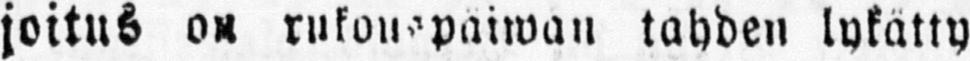joitus on rukouspäiwän tahden lykätty
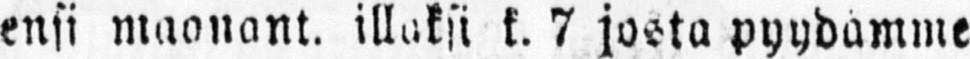ensi maanant. illaksi k. 7 josta pyydämme
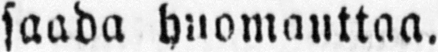saada huomauttaa.
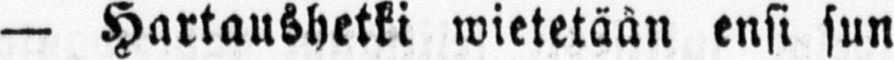— Hartaushetki wietetään ensi sun
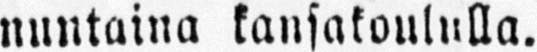nuntaina kansakoululla.
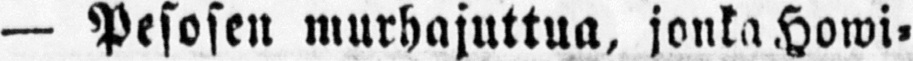— Pesosen murhajuttua, jonka Howi-
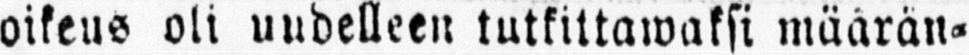oikeus oli uudelleen tutkittawaksi määrän-
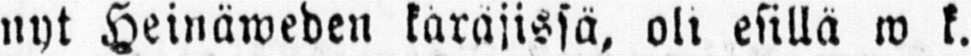nyt Heinäweden käräjissä, oli esillä w k.
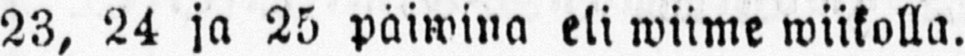23, 24 ja 25 päiwina eli wiime wiikolla.
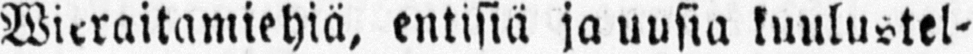Wieraitamiehiä, entisiä ja uusia kuulustel-
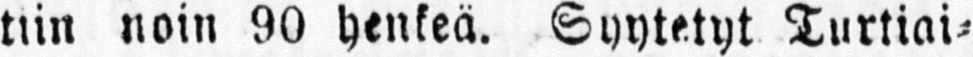tiin noin 90 henkeä. Syytetyt Turtiai-
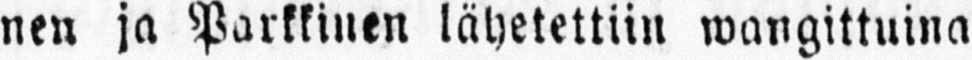nen ja Parkkinen lähetettiin wangittuina
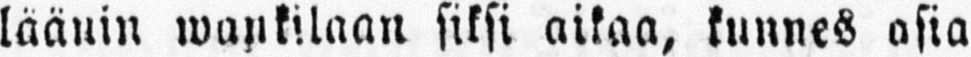läänin wankilaan siksi aikaa, kunnes asia
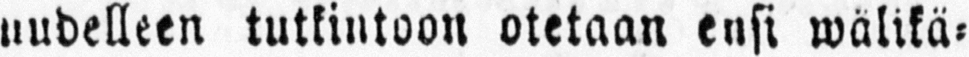uudelleen tutkintoon otetaan ensi wälikä-
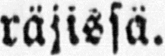räjissä.
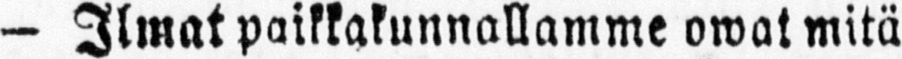— Ilmat paikkakunnallamme owat mitä
